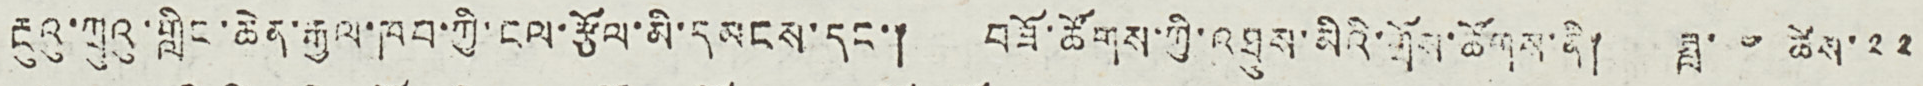རྔུའུ་ཀྲུའུ་གླིང་ཆེན་རྒྱལ་ཁབ་ཀྱི་ངལ་རྩོལ་མི་དམངས་དང་། བཟོ་ཚོགས་ཀྱི་འཐུས་མིའི་གྲོས་ཚོགས་ནི། ཟླ་ ༤ ཚེས་ ༢༢
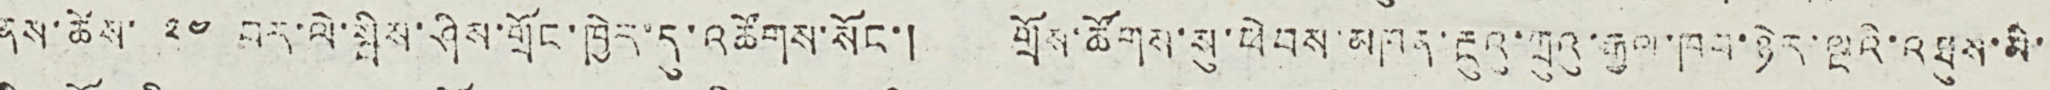ནས་ཚེས་ ༢༤ བར་ལེ་སྦིས་ཤིས་གྲོང་ཁྱེར་དུ་འཚོགས་སོང་། གྲོས་ཚོགས་སུ་ཕེབས་མཁན་རྔུའུ་ཀྲུའུ་རྒྱལ་ཁབ་ཉེར་ལྔའི་འཐུས་མི་
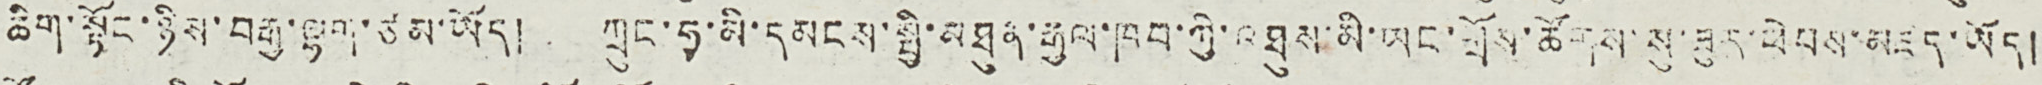ཆིག་སྟོང་ཉིས་བརྒྱ་ལྷག་ཙམ་ཡོད། ཀྲུང་ཧྭ་མི་དམངས་སྤྱི་མཐུན་རྒྱལ་ཁབ་ཀྱི་འཐུས་མི་ཡང་གྲོས་ཚོགས་སུ་ཟུར་ཕེབས་མཛད་ཡོད།
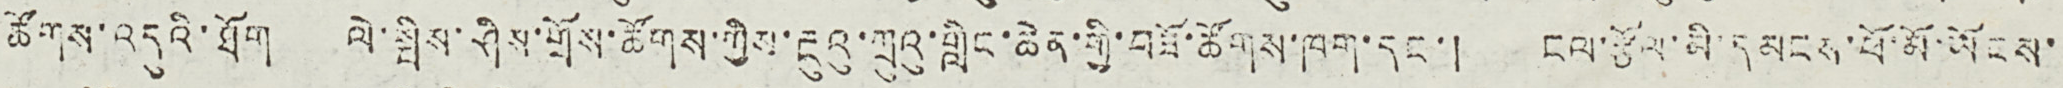ཚོགས་འདུའི་ཐོག ལེ་སྦིས་ཤིས་གྲོས་ཚོགས་ཀྱིས་རྔུའུ་ཀྲུའུ་གླིང་ཆེན་གྱི་བཟོ་ཚོགས་ཁག་དང་། ངལ་རྩོལ་མི་དམངས་ཕོ་མོ་ཡོངས་
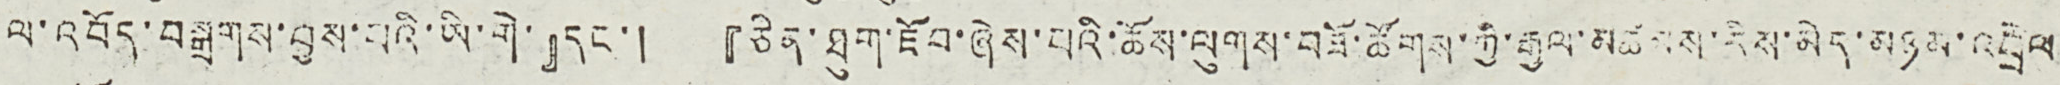ལ་འབོད་བསྒྲགས་བྱས་པའི་ཡི་གེ་』དང་། 『ཅིན་ཐུག་ཇོབ་ཞེས་པའི་ཆོས་ལུགས་བཟོ་ཚོགས་ཀྱི་རྒྱལ་མཚམས་རིས་མེད་མཉམ་འབྲེལ
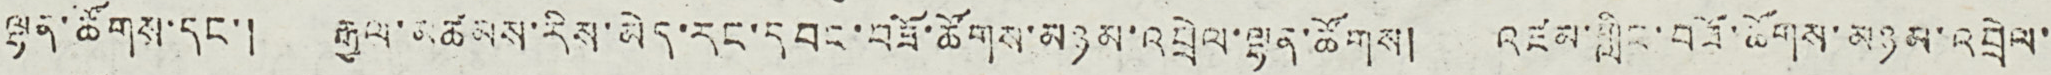ལྷན་ཚོགས་དང་། རྒྱལ་མཚམས་རིས་མེད་རང་དབང་བཟོ་ཚོགས་མཉམ་འབྲེལ་ལྷན་ཚོགས། འཛམ་གླིང་བཟོ་ཚོགས་མཉམ་འབྲེལ་
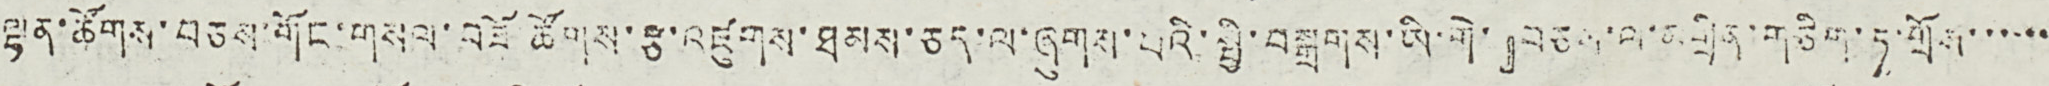ལྷན་ཚོགས་བཅས་གོང་གསལ་བཟོ་ཚོགས་རྩ་འཛུགས་ཐམས་ཅད་ལ་ཞུགས་པའི་སྤྱི་བསྒྲགས་ཡི་གེ་』བཅས་ལ་མགྲིན་གཅིག་ཏ་གྲོས་་་་་་
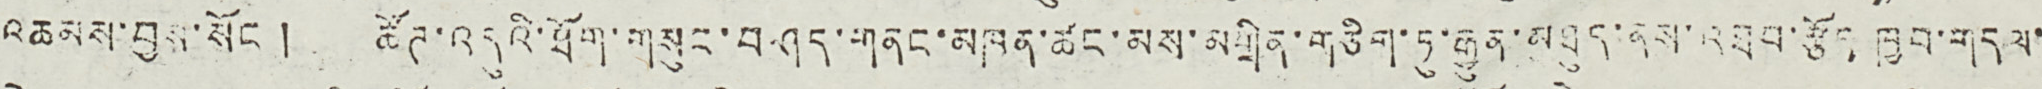འཆམས་བྱས་སོང ། ཚོཊ་འདུའི་ཐོག་གསུང་གཤད་གནང་མཁན་ཚང་མས་མགྲིན་གཅིག་ཏུ་རྒྱུན་མཐུད་ནས་འཐབ་རྩོད་ཁྱབ་གདལ་
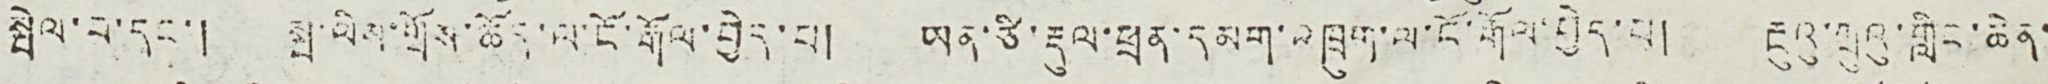སྤེལ་བ་དང་། སྤ་ལིས་གྲོས་ཆོད་ལ་ངོ་རྒོལ་བྱེད་པ། ཡན་ཙི་རྡུལ་ཕྲན་དམག་འཁྲུག་ལ་ངོ་རྒོལ་བྱེད་པ། རྔུའུ་ཀྲུའུ་གླིང་ཆེན་
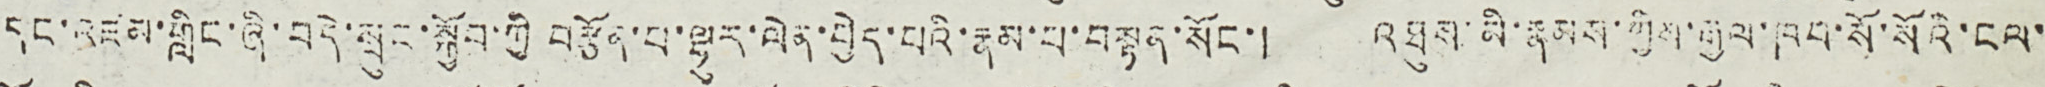དང་འཛམ་གླིང་ཞི་བདེ་སྲུང་སྐྱོབ་ཀྱི བརྩོན་པ་ལྷུར་ལེན་བྱེད་པའི་རྣམ་པ་བསྟན་སོང་། འཐུས་མི་རྣམས་ཀྱིས་རྒྱལ་ཁབ་སོ་སོའི་ངལ་
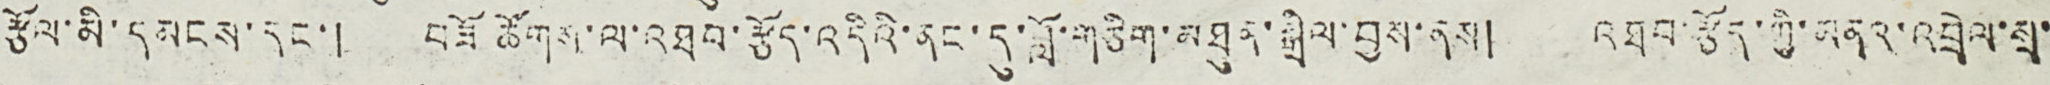རྩོལ་མི་དམངས་དང་། བཟོ ཚོགས་ལ་འཐབ་རྩོད་འདིའི་ནང་དུ་བློ་གཅིག་མཐུན་སྒྲིལ་བྱས་ནས། འཐབ་རྩོད་ཀྱི་མནའ་འབྲེལ་སྲ་
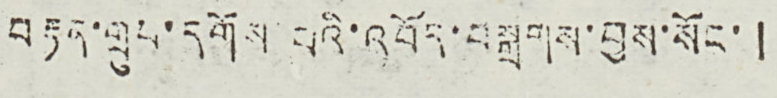བརྟན་གྲུབ་དགོས་པའི་འབོད་བསྒྲགས་བྱས་སོང་ །
